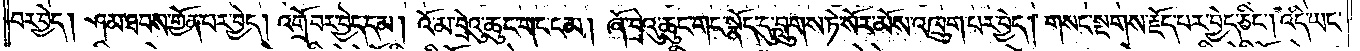བར་བྱེད། ཤམ་ཐབས་གྱོན་པར་བྱེད། འགྲོ་བར་བྱེད་དམ། འོ་མ་བྲེའུ་ཆུང་གང་ངམ། ཞོ་བྲེའུ་ཆུང་གང་སྣོད་དུ་བླུགས་ཏེ་སོར་མོས་འཁྲུག་པར་བྱེད། གསང་སྔགས་རྗོད་པར་བྱེད་ཅིང༌། འདི་ཡང་
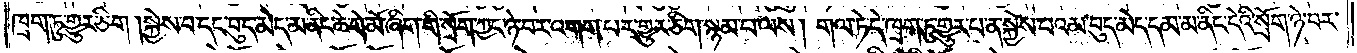ཁྲག་ཏུ་གྱུར་ཅིག །སྐྱེས་པ་དང་བུད་མེད་མ་ནིང་ཆེ་གེ་མོ་ཞིག་གི་སྲོག་ཀྱང་ཉེ་བར་འགག་པར་གྱུར་ཅིག་སྙམ་པ་ལས། གལ་ཏེ་དེ་ཁྲག་ཏུ་གྱུར་པ་ན་སྐྱེས་པའམ་བུད་མེད་དམ་མ་ནིང་དེའི་སྲོག་ཉེ་བར་
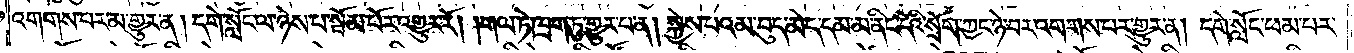འགགས་པར་མ་གྱུར་ན། དགེ་སློང་ལ་ཉེས་པ་སྦོམ་པོར་འགྱུར་རོ། །གལ་ཏེ་ཁྲག་ཏུ་གྱུར་པ་ན། སྐྱེས་པའམ་བུད་མེད་དམ་མ་ནིང་དེའི་སྲོག་ཀྱང་ཉེ་བར་འགགས་པར་གྱུར་ན། དགེ་སློང་ཕམ་པར་
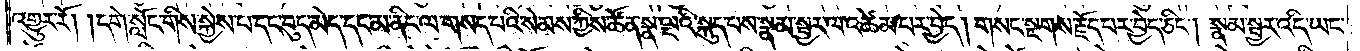འགྱུར་རོ། །དགེ་སློང་གིས་སྐྱེས་པ་དང་བུད་མེད་དང་མ་ནིང་ལ་གསད་པའི་སེམས་ཀྱིས་ཚོན་སྣ་ལྔའི་སྐུད་པས་སྣམ་སྦྱར་ལ་འཚེམ་པར་བྱེད། གསང་སྔགས་རྗོད་པར་བྱེད་ཅིང༌། སྣམ་སྦྱར་འདི་ཡང་
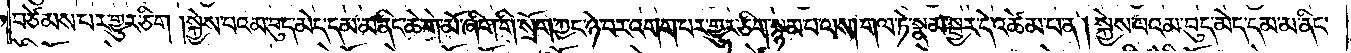བཙེམས་པར་གྱུར་ཅིག །སྐྱེས་པའམ་བུད་མེད་དམ་མ་ནིང་ཆེ་གེ་མོ་ཞིག་གི་སྲོག་ཀྱང་ཉེ་བར་འགག་པར་གྱུར་ཅིག་སྙམ་པ་ལས། གལ་ཏེ་སྣམ་སྦྱར་དེ་འཚེམ་པ་ན། སྐྱེས་པའམ་བུད་མེད་དམ་མ་ནིང་
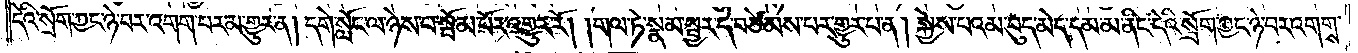དེའི་སྲོག་ཀྱང་ཉེ་བར་འགག་པར་མ་གྱུར་ན། དགེ་སློང་ལ་ཉེས་པ་སྦོམ་པོར་འགྱུར་རོ། །གལ་ཏེ་སྣམ་སྦྱར་དེ་བཙེམས་པར་གྱུར་པ་ན། སྐྱེས་པའམ་བུད་མེད་དམ་མ་ནིང་དེའི་སྲོག་ཀྱང་ཉེ་བར་འགགས་
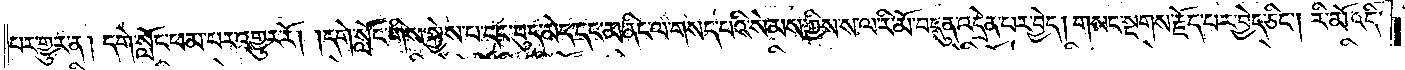པར་གྱུར་ན། དགེ་སློང་ཕམ་པར་འགྱུར་རོ། །དགེ་སློང་གིས་སྐྱེས་པ་དང་བུད་མེད་དང་མ་ནིང་ལ་གསད་པའི་སེམས་ཀྱིས་ས་ལ་རི་མོ་བདུན་འདྲེན་པར་བྱེད། གསང་སྔགས་རྗོད་པར་བྱེད་ཅིང༌། རི་མོ་འདི་
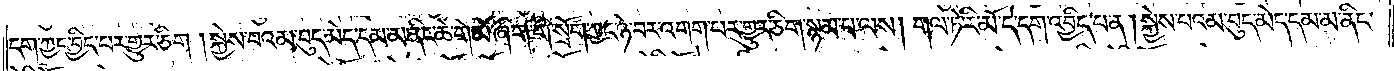དག་ཀྱང་བྱིད་པར་གྱུར་ཅིག །སྐྱེས་པའམ་བུད་མེད་དམ་མ་ནིང་ཆེ་གེ་མོ་ཞིག་གི་སྲོག་ཀྱང་ཉེ་བར་འགག་པར་གྱུར་ཅིག་སྙམ་པ་ལས། གལ་ཏེ་རི་མོ་དེ་དག་འབྱིད་པ་ན། སྐྱེས་པའམ་བུད་མེད་དམ་མ་ནིང་
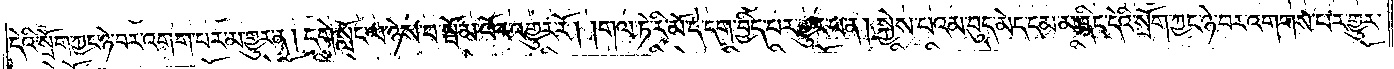དེའི་སྲོག་ཀྱང་ཉེ་བར་འགག་པར་མ་གྱུར་ན། དགེ་སློང་ལ་ཉེས་པ་སྦོམ་པོར་འགྱུར་རོ། །གལ་ཏེ་རི་མོ་དེ་དག་བྱིད་པར་གྱུར་པ་ན། སྐྱེས་པའམ་བུད་མེད་དམ་མ་ནིང་དེའི་སྲོག་ཀྱང་ཉེ་བར་འགགས་པར་གྱུར་
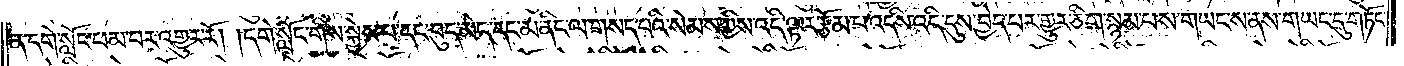ན་དགེ་སློང་ཕམ་པར་འགྱུར་རོ། །དགེ་སློང་གིས་སྐྱེས་པ་དང་བུད་མེད་དང་མ་ནིང་ལ་གསད་པའི་སེམས་ཀྱིས་འདི་ལྟར་རྩོམ་པ་འདིས་འདི་དུས་བྱེད་པར་གྱུར་ཅིག་སྙམ་པས་གཡང་ས་ནས་གཡང་དུ་གཏོང་
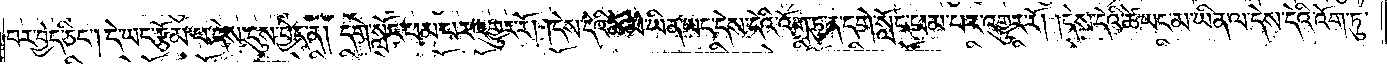བར་བྱེད་ཅིང༌། དེ་ཡང་རྩོམ་པ་དེས་དུས་བྱེད་ན། དགེ་སློང་ཕམ་པར་འགྱུར་རོ། །དེས་དེའི་ཚེ་མ་ཡིན་ཡང་དེས་དེའི་འོག་ཏུ་ན་དགེ་སློང་ཕམ་པར་འགྱུར་རོ། །དེས་དེའི་ཚེ་ཡང་མ་ཡིན་ལ་དེས་དེའི་འོག་ཏུ་
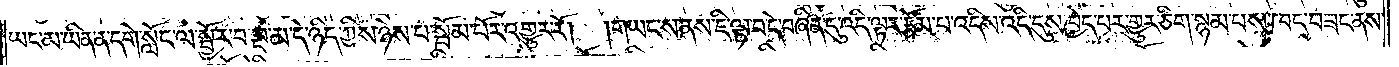ཡང་མ་ཡིན་ན་དགེ་སློང་ལ་སྦྱོར་བ་སྔ་མ་དེ་ཉིད་ཀྱིས་ཉེས་པ་སྦོམ་པོར་འགྱུར་རོ། །གཡང་ས་ནས་ཇི་ལྟ་བ་དེ་བཞིན་དུ་འདི་ལྟར་རྩོམ་པ་འདིས་འདི་དུས་བྱེད་པར་གྱུར་ཅིག་སྙམ་པས་ཁང་བཟང་ནས་
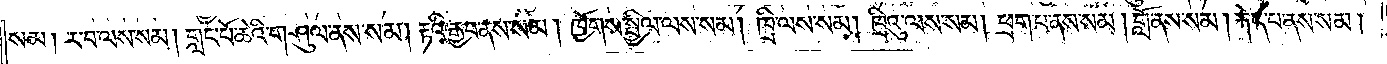སམ། ར་བ་ལས་སམ། གླང་པོ་ཆེའི་གཤུལ་ནས་སམ། རྟའི་རྒྱབ་ནས་སམ། ཁྱོགས་སྤྱིལ་ལས་སམ། ཁྲི་ལས་སམ། ཁྲིའུ་ལས་སམ། ཕྲག་པ་ནས་སམ། གློ་ནས་སམ། རྐེད་པ་ནས་སམ།
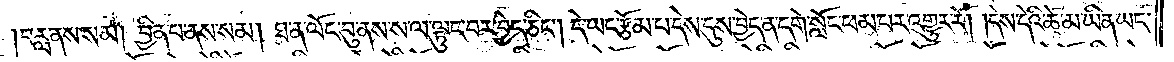བརླ་ནས་སམ། བྱིན་པ་ནས་སམ། ཐ་ན་ལོང་བུ་ནས་ས་ལ་ལྟུང་བར་བྱེད་ཅིང༌། དེ་ཡང་རྩོམ་པ་དེས་དུས་བྱེད་ན་དགེ་སློང་ཕམ་པར་འགྱུར་རོ། །དེས་དེའི་ཚེ་མ་ཡིན་ཡང་
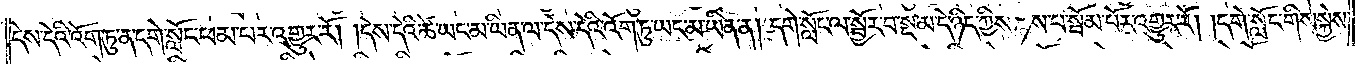དེས་དེའི་འོག་ཏུ་ན་དགེ་སློང་ཕམ་པར་འགྱུར་རོ། །དེས་དེའི་ཚེ་ཡང་མ་ཡིན་ལ་དེས་དེའི་འོག་ཏུ་ཡང་མ་ཡིན་ན། དགེ་སློང་ལ་སྦྱོར་བ་སྔ་མ་དེ་ཉིད་ཀྱིས་ཉེས་པ་སྦོམ་པོར་འགྱུར་རོ། །དགེ་སློང་གིས་སྐྱེས་
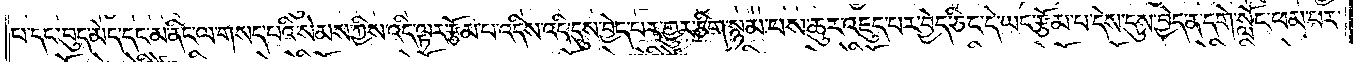པ་དང་བུད་མེད་དང་མ་ནིང་ལ་གསད་པའི་སེམས་ཀྱིས་འདི་ལྟར་རྩོམ་པ་འདིས་འདི་དུས་བྱེད་པར་གྱུར་ཅིག་སྙམ་པས་ཆུར་འཇུད་པར་བྱེད་ཅིང་དེ་ཡང་རྩོམ་པ་དེས་དུས་བྱེད་ན་དགེ་སློང་ཕམ་པར་
